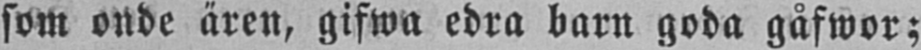som onde ären, gifwa edra barn goda gåfwor;
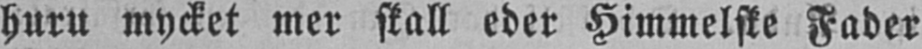huru mycket mer skall eder Himmelske Fader
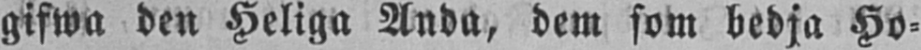gifwa den Heliga Anda, dem som bedja Ho-
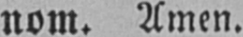nom. Amen.
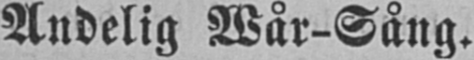Andelig Wår-Sång.
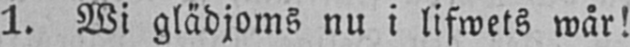1. Wi glädjoms nu i lifwets wår!
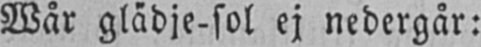Wår glädje-sol ej nedergår:
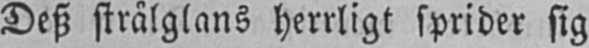Desz strålglans herrligt sprider sig
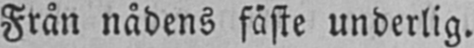Från nådens fäste underlig.
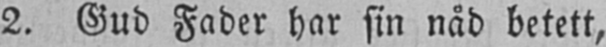2. Gud Fader har sin nåd betett,
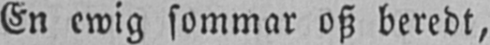En ewig sommar osz beredt,
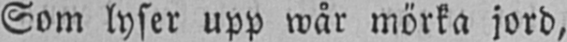Som lyser upp wår mörka jord,
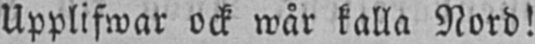Upplifwar ock wår kalla Nord!
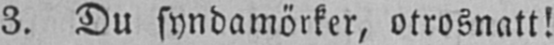3. Du syndamörker, otrosnatt!
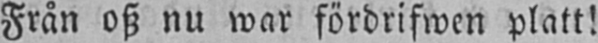Från osz nu war fördrifwen platt!
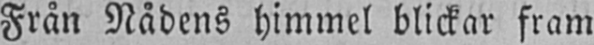Från Nådens himmel blickar fram
